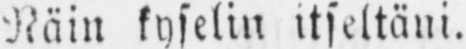Näin kyselin itseltäni.
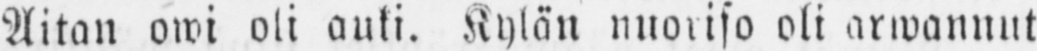Aitan owi oli auki. Kylän nuoriso oli arwannut
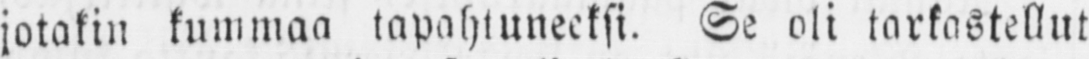jotakin kummaa tapahtuneeksi. Se oli tarkastellut
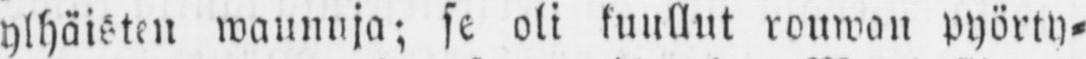ylhäisten waunuja: se oli kuullut rouwan pyörty-
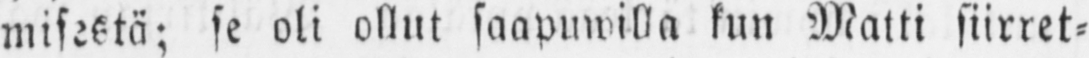misestä; se oli ollut saapuwilla kun Matti siirret-
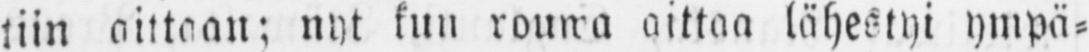tiin aittaan; nyt kun rouwa aittaa lähestyi ympä-
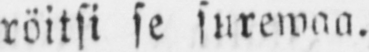röitsi se surewaa.
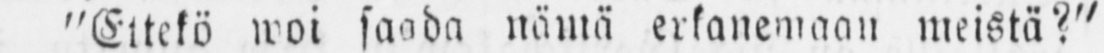ˮEttekö woi saada nämä erkanemaan meistä?ˮ
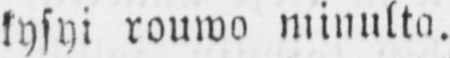kysyi rouwa minulta.
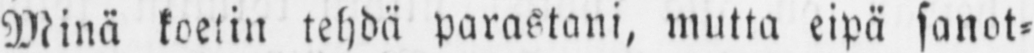Minä koetin tehdä parastani, mutta eipä sanot-
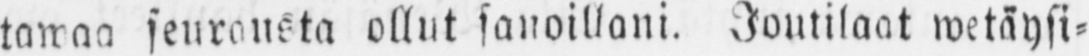tawaa seurausta ollut sanoillani. Joutilaat wetäysi-
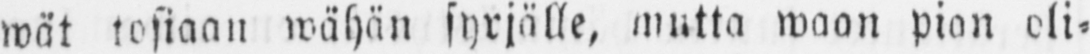wät tosiaan wähän syrjälle, mutta waan pian oli-
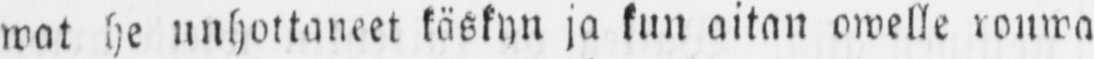wat he unhottaneet käskyn ja kun aitan owelle rouwa
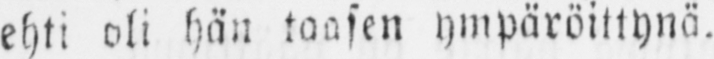ehti oli hän taasen ympäröittynä.
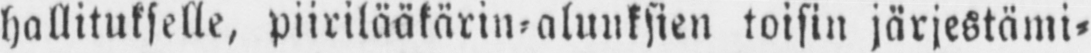hallitukselle, piirilääkärin-aluuksien toisin järjestämi-
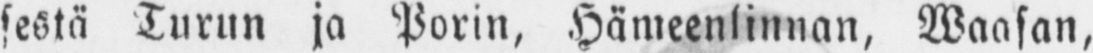sestä Turun ja Porin, Hämeenlinnan, Waasan,
